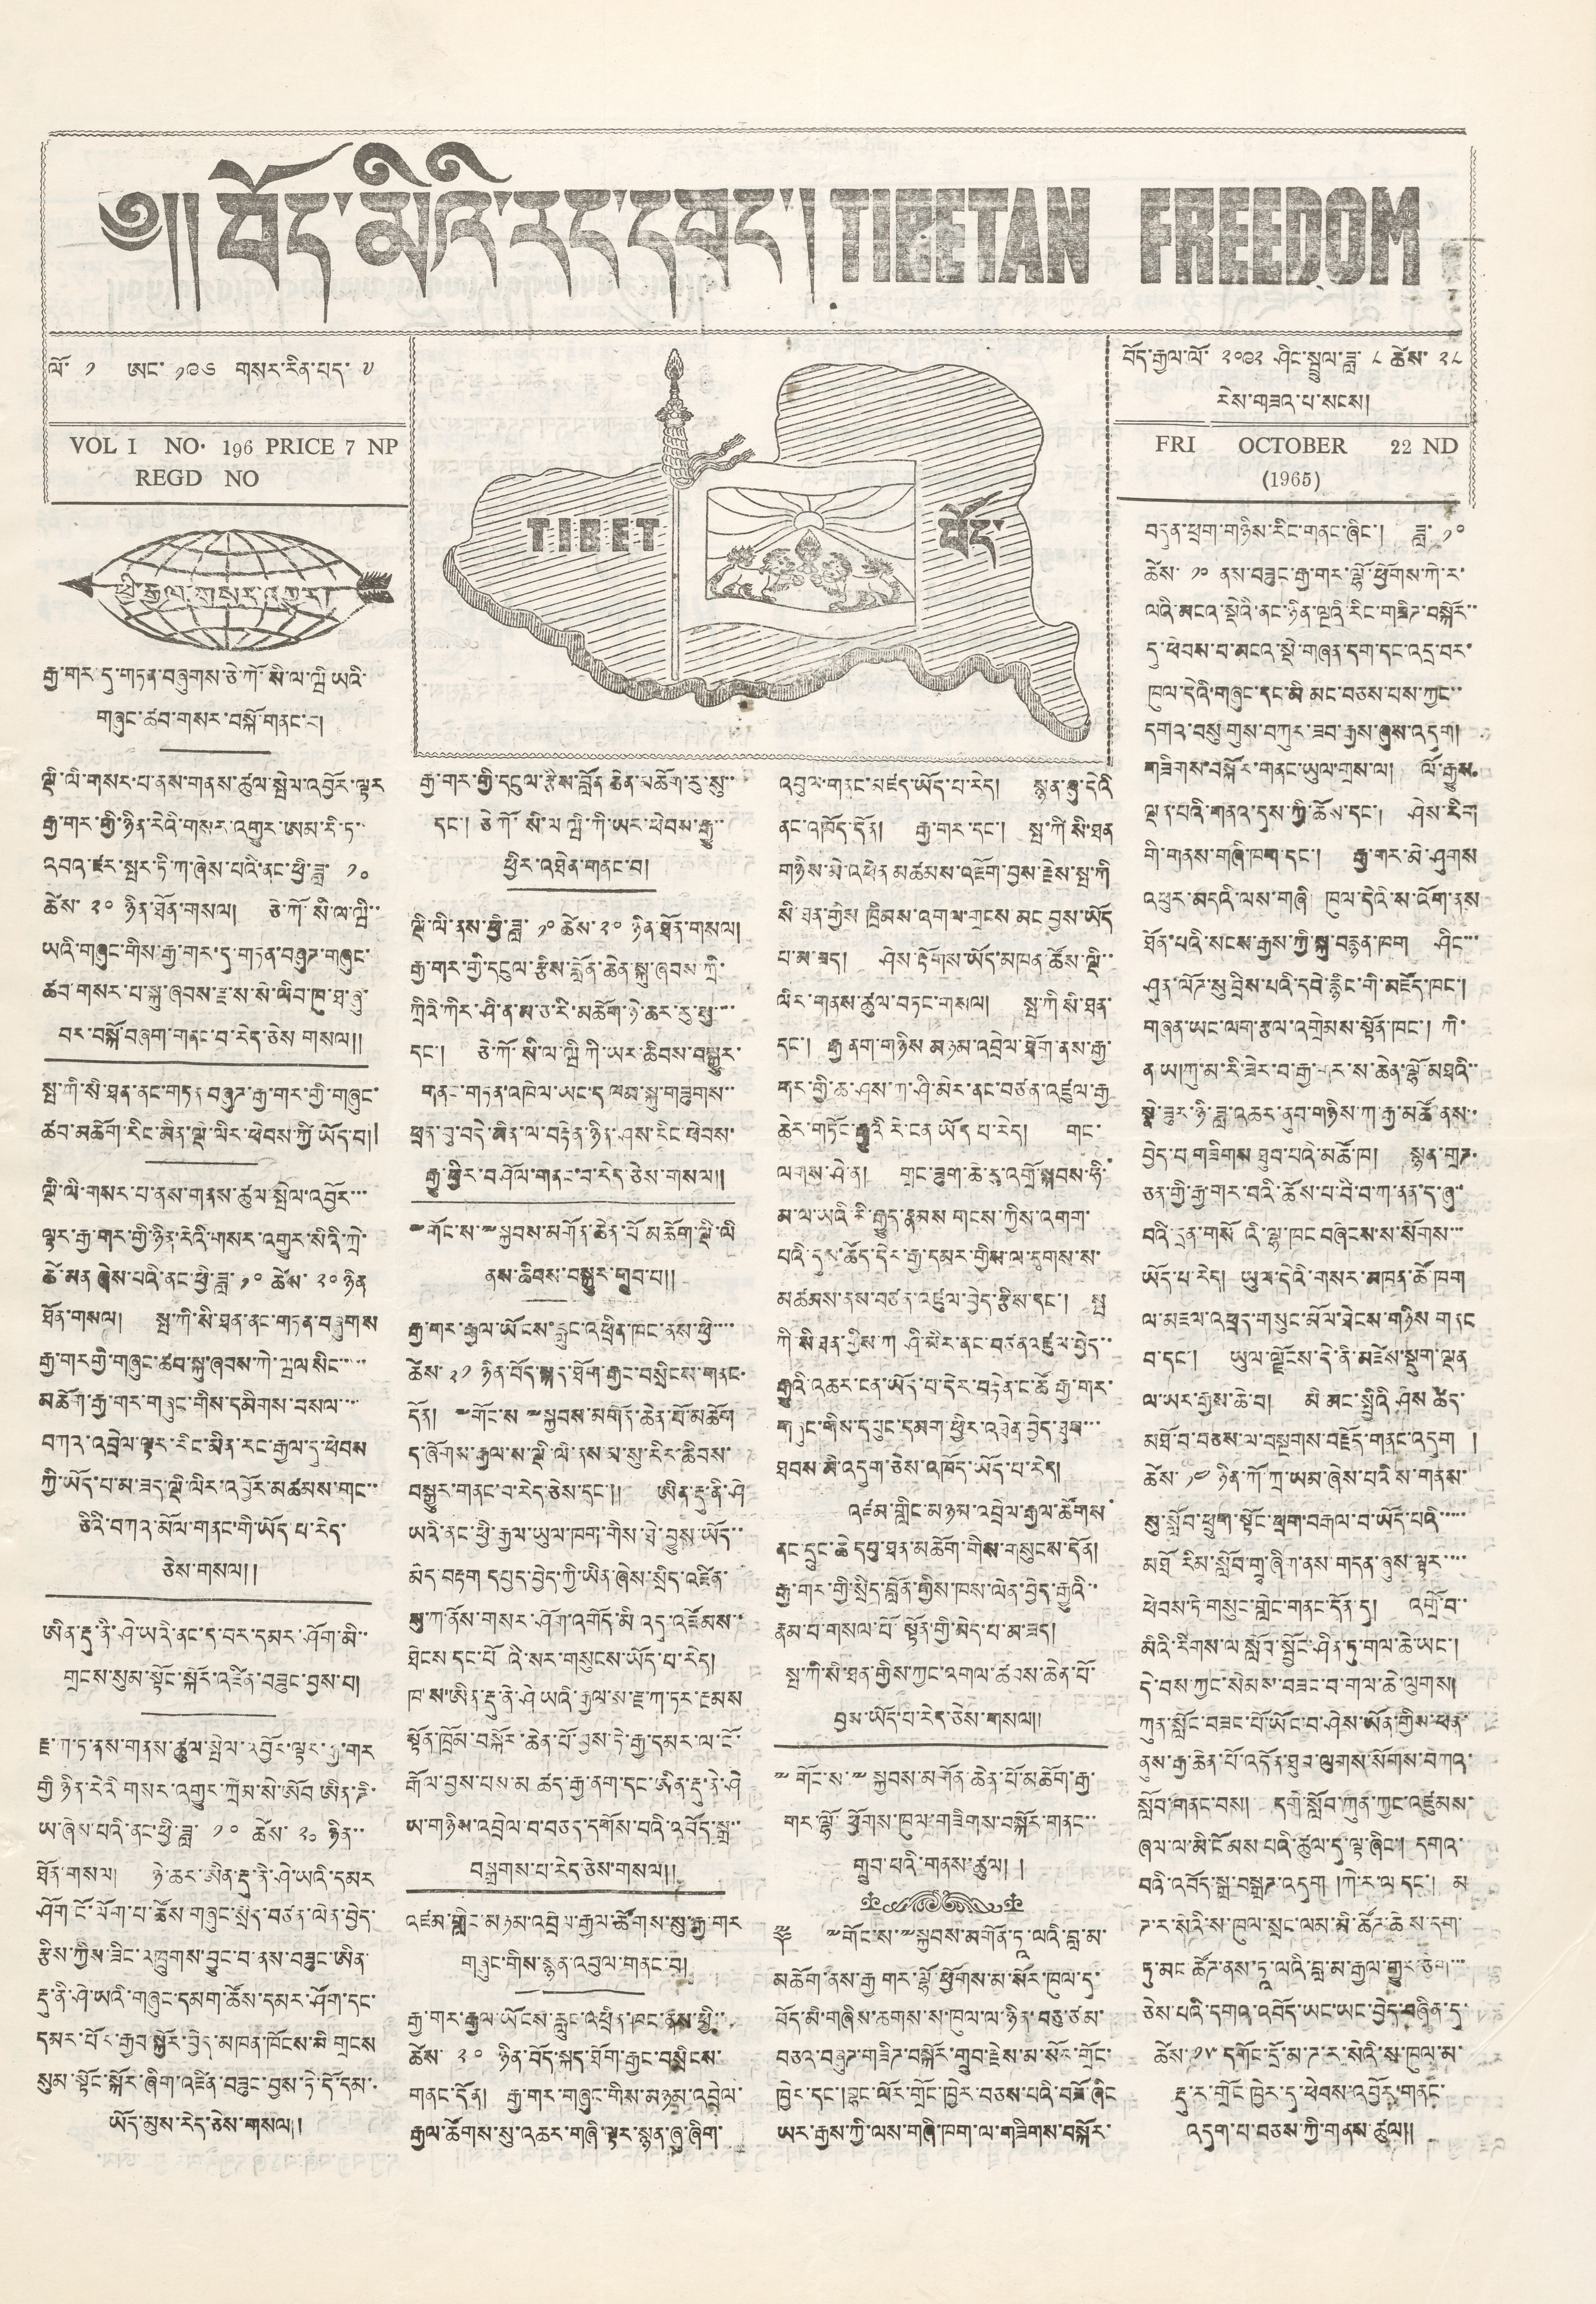༄།། བོད་མིའི་རང་དབང་། TIBETAN FREEDOM
ལོ་ ༡ ཨང་ ༡༩༦ གསར་རིན་པད་ ༧
VOL 1 NO. 196 PRICE 7 NP
REGD NO
བོད་རྒྱལ་ལོ་ ༢༠༩༢ ཤིང་སྦྲུལ་ཟླ་ ༨ ཚེས་ ༢༨
རེས་གཟའ་པ་སངས།
FRI OCTOBER 22 ND
(1965)
ཕྱི་རྒྱལ་གསར་འགྱུར།
རྒྱ་གར་དུ་གཏན་བཞུགས་ཅེ་ཀོ་སི་ལ་ཝི ཡའི་
གཞུང་ཚབ་གསར་བསྐོ་གནང་བ།
ལྡི་ལི་གསར་པ་ནས་གནས་ཚུལ་སྤེལ་འབྱོར་ལྟར
རྒྱ་གར་གྱི་ཉིན་རེའི་གསར་འགྱུར་ཨམ་རི་ཏ་་
འབའ་ཛར་སྤར་ཏི་ཀ་ཞེས་པའི་ནང་ཕྱི་ཟླ་ ༡༠
ཚེས་ ༢༠ ཉིན་ཐོན་གསལ། ཅེ་ཀོ་སི་ལ་ཝི་་
ཡའི་གཞུང་གིས་རྒྱ་གར་དུ་གཏད་བཞུཌ་གཞུང་
ཚབ་གསར་པ་སྐུ་ཞབས་རྫ་ས་སེ་ལིབ་ཁུ་ཐ་ཞུ་
བར་བསྐོ་བཞག་གནང་བ་རེད་ཅེས གསལ།།
སྤ་ཀི་སི་ཐན་ནང་གཏད་བཞུཌ་རྒྱ་གར་གྱི་གཞུང་
ཚབ་མཆོག་རིང་མིན་ལྡི་ལིར་ཕེབས་ཀྱི་ཡོད་བ།།
ལྡི་ལི་གསར་པ་ནས་གནས་ཚུལ་སྤེལ་འབྱོར་་་
ལྟར་རྒྱ་གར་གྱི་ཉིན་རེའི་གསར་འགྱུར་སིའི་ཀྲེ་
ཚེ་མན ཞེས་པའི་ནང་ཕྱི་ཟླ་ ༡༠ ཚེས་ ༢༠ ཉིན
ཐོན་གསལ། སྤ་ཀི་སི་ཐན་ནང་གཏན་བཞུགས
རྒྱ་གར གྱི་གཞུང་ཚབ་སྐུ་ཞབས་ཀེ་ཝལ་སིང་་་་
མཆོག་རྒྱ་གར་གཞུང་གིས་དམིགས་བསལ་་་་
བཀའ་འབྲེལ་ལྟར་རིང་མིན་རང་རྒྱལ་དུ་ཕེབས
ཀྱི་ཡོད་པ་མ་ཟད་ལྡི་ལིར་འབྱོར་མཚམས་གང་་
ཅིའི་བཀའ་མོལ་གནང་གི་ཡོད་པ་རེད་
ཅེས་གསལ།།
ཨིན་རྡུ་ནི་ཤེ་ཡའི་ནང་ད་བར་དམར་ཤོག་མི་་
གྲངས་སུམ་སྟོང་སྐོར་འཛིན་བཟུང་བྱས་པ།
རྫ་ཀ་ཏ་ནས་གནས་ཚུལ་སྤེལ་འབྱོར་ལྟར་རྒྱ་གར
གྱི ཉིན་རེའི གསར་འགྱུར་ཀྲེམ་སེ་ཨོབ ཨིན་ཌི་
ཡ་ཞེས་པའི་ནང་ཕྱི་ཟླ་ ༡༠ ཚེས་ ༢༠ ཉིན་་
ཐོན་གསལ། ཉེ་ཆར་ཨིན་རྡུ་ནི་ཤེ་ཡའི་དམར
ཤོག་ངོ་ལོག་པ་ཚོས་གཞུང་སྲིད་བཙན་ལེན་བྱེད་
རྩིས་ཀྱིས་ཟིང་འཁྲུགས་བྱུང་བ་ནས་བཟུང་ཨིན་
རྡུ་ནི་ཤེ་ཨའི་གཞུང་དམག་ཚོས་དམར་ཤོག་དང་
དམར་པོར་རྒྱབ་སྐྱོར་བྱེད་མཁན་ཁོངས་མི་གྲངས
སུམ་སྟོང་སྐོར་ཞིག་འཛིན་ཟུང་བྱས་ཏེ་དོ་དམ་
ཡོད་མུས་རེད་ཅེས་གསལ།།
TIBET བོད་
རྒྱ་གར་གྱི་དངུལ་རྩིས་བློན ཆེན་མཆོག་རུ་སུ་་
དང་། ཅེ ཀོ་སི་ལ ཝི་ཀི་ཡར་ཕེབས་རྒྱུ་་
ཕྱིར་འཐེན་གནང་བ།
ལྡི་ལི་ནས་ཕྱི་ཟླ་ ༡༠ ཚེས་ ༢༠ ཉིན་ཐོན་གསལ།
རྒྱ་གར་གྱི་དངུལ་རྩིས་བློན་ཆེན་སྐུ་ཞབས་ཀྲི་
ཀྲིའི་ཀིར་ཤི་ན་མ་ཅ་རི་མཆོག་ཉེ་ཆར་རུ་སུ་་་་
དང་། ཅེ་ཀོ་སི་ལ་ཝི ཀི་ཡར་ཆིབས་བསྒྱུར་
གནང་གཏན་འཁེལ་ཡང་ད་ལམ་སྐུ་གཟུགས་་
ཕྲན་བུ་བདེ་མིན་ལ་བརྟེན་ཉིན་ཤས་རིང་ཕེབས་
རྒྱུ་ཕྱིར་བཤོལ་གནང་བ་རེད་ཅེས་གསལ།།
༸གོང་ས་༸སྐྱབས་མགོན་ཆེན་པོ མཆོག་ལྡི་ལི
ནས་ཆིབས་བསྐྱུར་གྲུབ་པ།།
རྒྱ་གར་རྒྱལ་ཡོངས་རླུང་འཕྲིན་ཁང་ནས་ཕྱི་་་་་
ཚེས་ ༢༡ ཉིན་བོད་སྐད་ཐོག་རྒྱང་བསྲིངས་གནང་
དོན། ༸གོང་ས་༸སྐྱབས་མགོན་ཆེན་པོ་མཆོག
ད་ཞོགས་རྒྱལ་ས་ལྡི་ལི་ནས་མ་སུ་རིར་ཆིབས་
བསྒྱུར་གནང་པ་རེད་ཅེས་དྲང་།། ཨིན་རྡུ་ནི་ཤེ
ཡའི་ནང་ཕྱི་རྒྱལ་ཡུལ་ཁག་གིས་ཐེ་བྱུས་ཡོད་་
མེད་བརྟག དཔྱད་བྱེད་ཀྱི་ཡིན་ཆེས་སྲིད་འཛིན་
སུ་ཀ་ནོས་གསར་ཤོག་འགོད་མི་འདུ་འཛོམས་་
ཐེངས་དང་པའི་སར་གསུངས་ཡོད་པ་རེད།
ཁ་ས་ཨིན་རྡུ་ནེ་ཤེ ཡའི་རྒྱལ་ས་རྫ་ཀ་ཏར་རྔམས
སྟོན་ཁྲོམ་བསྐོར་ཆེན་པོ་བྱས་ཏེ་རྒྱ་དམར་ལ་ངོ་
རྒོལ་བྱས་པས་མ ཚད་རྒྱ་ནག་དང་ཨིན་རྡུ་ནེ་ཤེ
ཡ་གཉིས་འབྲེལ་བ་བཅད་དགོས་པའི་འབོད་སྒྲ་་
བསྒྲགས་པ་རེད་ཅེས་གསལ།།
འཛམ་གླིང་མཉམ་འབྲེལ་རྒྱལ་ཚོགས་སུ་རྒྱ་གར
གཞུང་གིས་སྙན་འབུལ་གནང་བ།
རྒྱ་གར་རྒྱལ་ཡོངས་རླུང་འཕྲིན་ཁང་ནས་ཕྱི་་
ཚེས་ ༢༠ ཉིན་བོད་སྐད་ཐོག་རྒྱང་བསྲིངས་
གནང་དོན། རྒྱ་གར་གཞུང་གིས་མཉམ་འབྲེལ་
རྒྱལ་ཚོགས་སུ་འཆར་གཞི་ལྟར་སྙན་ཞུ་ཞིག་
འབུལ་གནང་མཛད་ཡོད་པ་རེད། སྙན་ཞུ་དེའི
ནང་འཁོད་དོན། རྒྱ་གར་དང་། སྤ་ཀི སི་ཐན
གཉིས་མེ་འཕེན མཚམས་འཇོག་བྱས་རྗེས་སྤ་ཀི
སི་ཐན་གྱིས་ཁྲིམས་འགལ་གྲངས མང་བྱས་ཡོད
པ་མ་ཟད། ཤེས་རྟོགས་ཡོད་མཁན་ཚོས་ལྡི་་
ལིར་གནས་ཚུལ་བཏང་གསལ། སྤ་ཀི སི་ཐན་
དང་། རྒྱ ནག་གཉིས མཉམ་འབྲེལ་ཐོག་ནས་རྒྱ་
གར་གྱི་ཆ་ཤས་ཀ་ཤི་མིར་ནང་བཙན་འཛུལ་རྒྱ
ཆེར་གཏོང་རྒྱུའི་རེ་ངན ཡོད པ་རེད། གང་
ལགས་ཤེ་ན། གྲང་ཟུག་ཆེ་རུ་འགྲོ་སྐབས་ཧི་
མ་ལ་ཡའི་རི་རྒྱུད་རྣམས གངས་ཀྱིས་འགག་
པའི་དུས་ཚོད་དེར་རྒྱ་དམར་གྱིས་ལ་དྭགས་ས་
མཚམས་ནས་བཙན་འཛུལ་བྱེད་རྩིས་དང་། སྤ
ཀི་སི་ཐན་གྱིས་ཀ ཤི་མིར་ནང་བཙན་འཛུལ་བྱེད་་
རྒྱུའི་འཆར་ངན་ཡོད་པ་དེར་བརྟེན་ང་ཚོ རྒྱ་གར་
གཞུང་གིས་དཔུང་དམག་ཕྱིར་འཐེན་བྱེད་ཐུབ་་་
ཐབས་མི་འདུག་ཅེས་འཁོད་ཡོད་པ་རེད།
འཛམ་གླིང་མཉམ་འབྲེལ་རྒྱལ་ཚོགས
ནང་དྲུང་ཆེ་དབུ་ཐན་མཆོག་གིས་གསུངས་དོན།
རྒྱ་གར་གྱི་སྲིད་བློན་གྱིས་ཁས་ལེན་བྱེད་རྒྱུའི་་
རྣམ་པ་གསལ་པོ་སྟོན་གྱི་མེད་པ་མ་ཟད།
སྤ་ཀི་སི་ཐན་ཀྱིས་ཀྱང་འགལ་ཚབས་ཆེན་པོ་
བྱས་ཡོད་པ་རེད་ཅེས་གསལ།།
༸གོང་ས་༸སྐྱབས་མགོན་ཆེན་པོ་མཆོག་རྒྱ་
གར་ལྷོ་ཕྱོགས་ཁུལ་གཟིགས་བསྐོར་གནང་་
གྲུབ་པའི་གནས་ཚུལ། །
༈ ༸གོང་ས་༸སྐྱབས་མགོན་ཏཱ་ལའི་བླ་མ་
མཆོག་ནས་རྒྱ གར་ལྷོ་ཕྱོགས་མ་སོང་ཁུལ་དུ་
བོད་མི་གཞིས་ཆགས་ས་ཁུལ་ལ་ཉིན་བཅུ་ཙམ་
བཅའ་བཞུཌ་གཟིཌ་བསྐོར་གྲུབ་རྗེས་མ་སོར་གྲོང་
ཁྱེར་དང་།བྷང་ལོར་གྲོང་ཁྱེར་བཅས་པའི་བཟོ་ཞིང
ཡར་རྒྱས་ཀྱི་ལས་གཞི་ཁག་ལ་གཟིགས་བསྐོར་
བདུན་ཕྲག་གཉིས་རིང་གནང་ཞིང་། ཟླ་ ༡༠
ཚེས་ ༡༠ ནས་བཟུང་རྒྱ་གར་ལྷོ་ཕྱོགས་ཀེ་ར་
ལའི་མངའ་སྡེའི་ནང་ཉིན་ལྔའི རིང་གཟིཌ་བསྐོར་་
དུ་ཕེབས་པ་མངའ་སྡེ་གཞན་དག་དང་འདྲ་བར་
ཁུལ་དེའི་གཞུང་དང་མི མང་བཅས་པས་ཀྱང་་
དགའ་བསུ གུས་བཀུར་ཟབ་རྒྱས་ཞུས་འདུག།
གཟིགས་བསྐོར་གནང་ཡུལ་གྲས་ལ། ལོ་རྒྱུས
ལྡན་པའི་གནས་དུས་ཀྱི་ཆོས་དང་། ཤེས་རིག
གི་གནས་གཞི་ཁག་དང་། རྒྱ་གར་མེ་ཤུགས
འཕུལ་མདའི་ལས་གཞི། ཁུལ་དེའི་ས་འོག་ནས
ཐོན་པའི་སངས་རྒྱས་ཀྱི་སྐུ་བརྙན་ཁག ཤིང་་་
ཤུན་ལོཌ་སུ་བྲིས་པའི་དེབ་རྙིང་གི་མཛོད་ཁང་།
གཞན་ཡང་ལག་རྩལ་འགྲེམས་སྟོན་ཁང་། ཀི་
ན ཡ།ཀུ་མ་རི་ཟེར་བ་རྒྱ་གར་ས་ཆེན་ལྷོ་མཐའི་་
སྣེ་ཟུར་ཉི་ཟླ་འཆར་ནུབ་གཉིས་ཀ་རྒྱ་མཚོ་ནས་་
བྱེད་པ གཟིགས་ཐུབ་པའི་མཚོ་ཁ། སྙན་གྲཌ་
ཅན་གྱི་རྒྱ་གར་བའི་ཚོས་པ་བི་བ་ཀ་ནན་ད་ཞུ་
བའི་དྲན་གསོའི་ལྷ་ཁང་བཞེངས་ས་སོགས་་་
ཡོད་པ་རེད། ཡུལ་དེའི་གསར་མཁན་ཚོ་ཁག
ལ་མཇལ་འཕྲད་གསུང་མོལ་ཐེངས་གཉིས གནང
བ་དང་། ཡུལ་ལྗོངས་དེ་ནི་མཛེས་སྡུག་ལྡན
པ་ཡར་རྒྱས་ཆེ་བ། མི་མང་སྤྱིའི་ཤེས་ཚད་
མཐོ་བ་བཅས་ལ་བསྔགས་བརྗོད་གནང་འདུག །
ཚེས་ ༡༤ ཉིན་ཀོ་ཀྲ་ཡམ་ཞེས་པའི་ས་གནས་
སུ་སློབ་ཕྲུག་སྟོང་ཕྲག་བརྒལ་བ་ཡོད་པའི་་་་་
མཐོ རིམ་སློབ་གྲྭ་ཞིག་ནས་གདན་ཞུས་ལྟར་་་་
ཕེབས་ཏེ་གསུང་གླེང་གང་དོན་དུ། འགྲོ་བ་་
མིའི་རིགས་ལ་སློབ་སྦྱོང་ཤིན་ཏུ་གལ་ཆེ་ཡང་།
དེ་བས་ཀྱང་སེམས་བཟང་བ་གལ་ཆེ་ལུགས།
ཀུན་སློང་བཟང་པོ་ཡོང་བ་ཤེས་ཡོན་གྱིས་ཕན་
ནུས་རྒྱ་ཆེན་པོ་འདོན་ཐུབ་ལུགས་སོགས་བཀའ་
སློབ་གནག་བས། དགེ་སློང་ཀུན་ཀྱང་འཛུམས་
ཞལ་ལ་མི་ངོ མས པའི་ཚུལ་དུ་ལྟ་ཞིང་། དགའ་
བའི་འབོད་སྒྲ་བསྒྲཌ་འདུག །ཀེ་ར་ལ དང་། མ
ཌ་ར་སེའི་ས་ཁུལ་སྲང་ལམ་མི་ཚོཌ་ཆེས་དག་
ཏུ་མང་ཚོཌ་ནས་ཏཱ་ལའི་བླ་མ་རྒྱལ་གྱུར་ཅིག་་་
ཅེས་པའི་དགའ་འབོད་ཡང་ཡང་བྱེད་བཞིན་དུ་
ཚེས་ ༡༥ དགོང་དྲོ་མ་ཌ་ར་སེའི་ས་ཁུལ་མ་
རྡུ་ར་གྲོང་ཁྱེར་དུ་ཕེབས་འབྱོར་གནང་
འདུག་པ་བཅས་ཀྱི་གནས་ཚུལ།།
